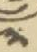༣
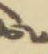ཚེས་
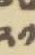༢༡
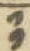༡༡
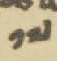༡༧
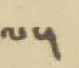ལ་།
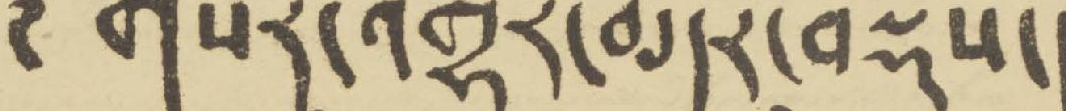གསར་འགྱུར་མདོར་བསྡུས་།
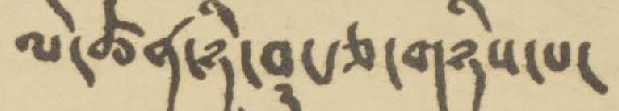ལེ་མཚན་ཉི་ཤུ་རྩ་གཉིས་པ་
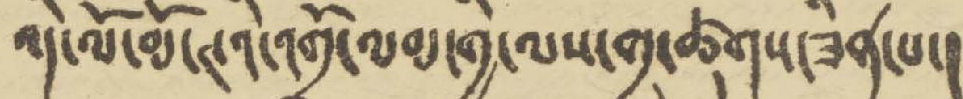འདི་ལོ་མོ་ཊའི་འགྲོ་ལམ་གྱི་ལས་གྲྭ་ཚུགས་ཟིན་པ་།
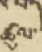ཚུལ་
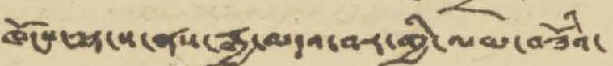ཁོངས་ལྷ་ས་ནས་རྒྱ་མདའ་བར་གྱི་ལམ་བཟོའི་
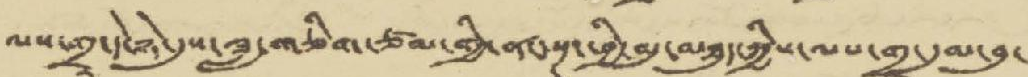ལས་གྲྭ་དེ་ཉེ་དུས་ཟླ་གཅིག་ཙམ་གྱི་ནང་སྔ་ཕྱི་མུ་མཐུད་ཀྱིས་ལས་གྲྭ་དུམ་བུ་
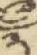༣
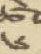༦
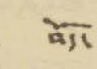བོད་
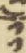༡༡
